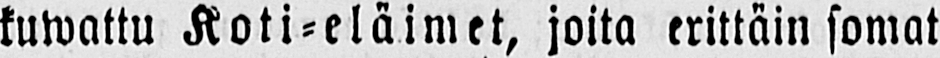kuwattu Koti-eläimet, joita erittäin somat
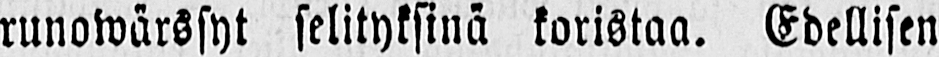runowärssyt selityksinä koristaa. Edellisen
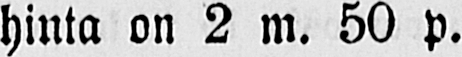hinta on 2 m. 50 p.
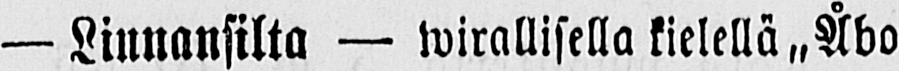— Linnansilta — wirallisella kielellä „Åbo
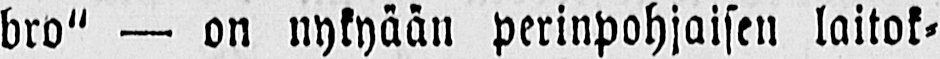bro" — on nykyään perinpohjaisen laitok-
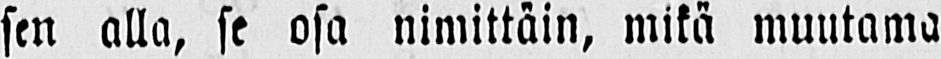sen alla, se osa nimittäin, mikä muutama
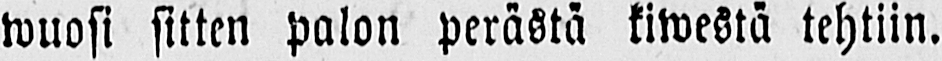wuosi sitten palon perästä kiwestä tehtiin.
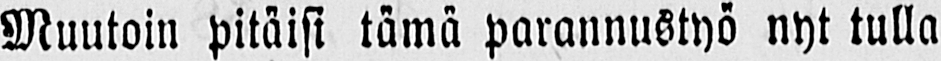Muutoin pitäisi tämä parannustyö nyt tulla
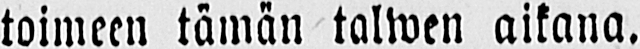toimeen tämän talwen aikana.
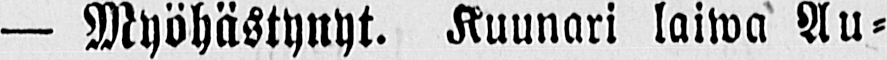— Myöhästynyt. Kuunari laiwa Au-
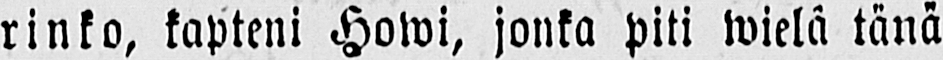rinko, kapteni Howi, jonka piti wielä tänä
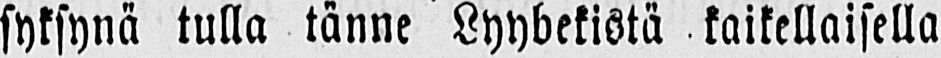syksynä tulla tänne Lyybekistä kaikellaisella
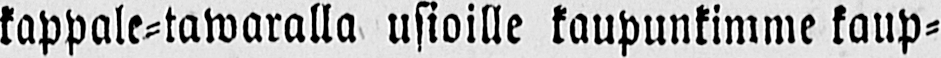kappale-tawaralla usioille kaupunkimme kaup-
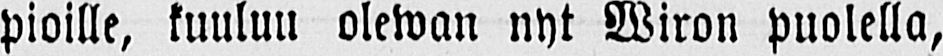pioille, kuuluu olewan nyt Wiron puolella,
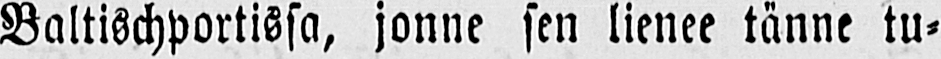Baltischportissa, jonne sen lienee tänne tu-
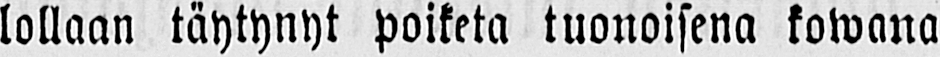lollaan täytynyt poiketa tuonoisena kowana
